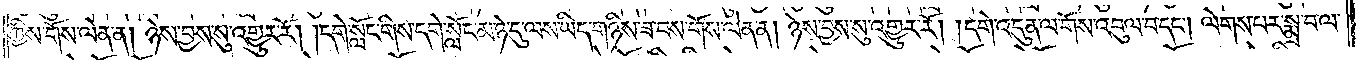ཀྱིས་གོས་ལེན་ན། ཉེས་བྱས་སུ་འགྱུར་རོ། །དགེ་སློང་གིས་དགེ་སློང་མ་ཉེ་དུ་ལས་ཡིད་གཉིས་ཟ་བས་གོས་ལེན་ན། ཉེས་བྱས་སུ་འགྱུར་རོ། །དགེ་འདུན་ལ་གོས་འབུལ་བ་དང༌། ལེགས་པར་སྨྲ་བ་ལ་
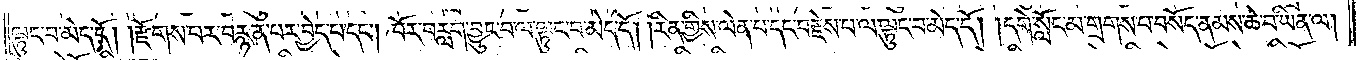ལྟུང་བ་མེད་དོ། །རྫོགས་པར་བརྙན་པར་བྱེད་པ་དང༌། བོར་བརླག་བྱུང་བ་ལ་ལྟུང་བ་མེད་དོ། །རིན་གྱིས་ལེན་པ་དང་བརྗེས་པ་ལ་ལྟུང་བ་མེད་དོ། །དགེ་སློང་མ་གྲགས་པ་བསོད་ནམས་ཆེ་བ་ཡིན་ལ།
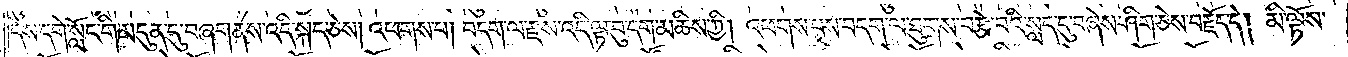དེས་དགེ་སློང་གི་མདུན་དུ་བཞག་ནས་འདི་སྐད་ཅེས། འཕགས་པ། བདག་ལ་རྫས་འདི་ལྟ་བུ་དག་མཆིས་ཀྱི། འཕགས་པས་བདག་ལ་ཐུགས་བརྩེ་བའི་སླད་དུ་བཞེས་ཤིག་ཅེས་བརྗོད་དེ། མི་ལྟོས་
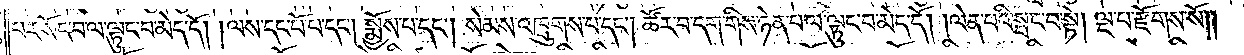པར་སོང་བ་ལ་ལྟུང་བ་མེད་དོ། །ལས་དང་པོ་པ་དང༌། སྨྱོས་པ་དང༌། སེམས་འཁྲུགས་པ་དང༌། ཚོར་བ་དག་གིས་ཉེན་པ་ལ་ལྟུང་བ་མེད་དོ། །ལེན་པའི་སྤང་བ་སྟེ། ལྔ་པ་རྫོགས་སོ༎
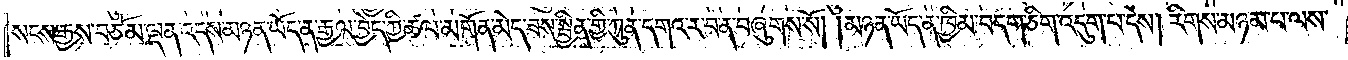སངས་རྒྱས་བཅོམ་ལྡན་འདས་མཉན་ཡོད་ན་རྒྱལ་བྱེད་ཀྱི་ཚལ་མགོན་མེད་ཟས་སྦྱིན་གྱི་ཀུན་དགའ་ར་བ་ན་བཞུགས་སོ། །མཉན་ཡོད་ན་ཁྱིམ་བདག་ཅིག་འདུག་པ་དེས། རིགས་མཉམ་པ་ལས་
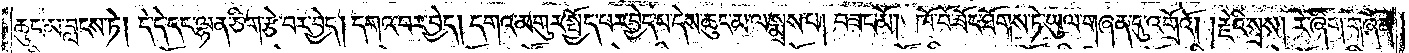ཆུང་མ་བླངས་ཏེ། དེ་དེ་དང་ལྷན་ཅིག་རྩེ་བར་བྱེད། དགའ་བར་བྱེད། དགའ་མགུར་སྤྱོད་པར་བྱེད་པ་དེས་ཆུང་མ་ལ་སྨྲས་པ། བཟང་མོ། ཁོ་བོ་ཟོང་ཐོགས་ཏེ་ཡུལ་གཞན་དུ་འགྲོའོ། །རྗེའི་སྲས། རེ་ཞིག་གཞོན་
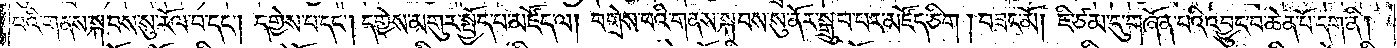པའི་གནས་སྐབས་སུ་རོལ་བ་དང༌། དགྱེས་པ་དང༌། དགྱེས་མགུར་སྤྱོད་པ་མཛོད་ལ། བགྲེས་པའི་གནས་སྐབས་སུ་ནོར་སྒྲུབ་པར་མཛོད་ཅིག། བཟང་མོ། ཇི་ཙམ་དུ་གཞོན་པའི་འབྱུང་བ་ཆེན་པོ་དག་ནི།
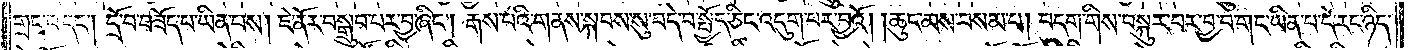གྲང་བ་དང༌། དྲོ་བ་བཟོད་པ་ཡིན་པས། ཇེ་ནོར་བསྒྲུབ་པར་བྱ་ཞིང༌། རྒས་པའི་གནས་སྐབས་སུ་བདེ་བ་སྤྱོད་ཅིང་འདུག་པར་བྱའོ། །ཆུང་མས་བསམ་པ། བདག་གིས་བསྐུར་བར་བྱ་བ་གང་ཡིན་པ་དེ་རང་ཉིད་
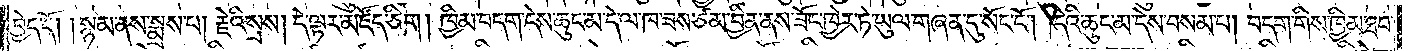བྱེད་དོ། །སྙམ་ནས་སྨྲས་པ། རྗེའི་སྲས། དེ་ལྟར་མཛོད་ཅིག །ཁྱིམ་བདག་དེས་ཆུང་མ་དེ་ལ་ཁ་ཟས་ཙམ་བྱིན་ནས་ཟོང་ཁྱེར་ཏེ་ཡུལ་གཞན་དུ་སོང་ངོ༌། །དེའི་ཆུང་མ་དེས་བསམ་པ། བདག་གིས་ཁྱིམ་ཐབ་
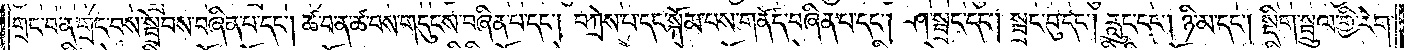གྲང་བ་ན་གྲང་བས་སྦྲེབས་བཞིན་པ་དང༌། ཚ་བ་ན་ཚ་བས་གདུངས་བཞིན་པ་དང༌། བཀྲེས་པ་དང་སྐོམ་པས་གནོད་བཞིན་པ་དང༌། ཤ་སྦྲང་དང༌། སྦྲང་བུ་དང༌། རླུང་དང༌། ཉི་མ་དང༌། སྡིག་སྦྲུལ་གྱི་རེག་
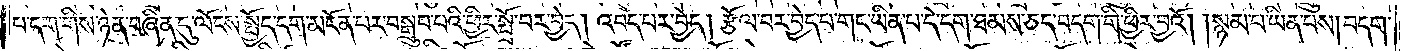པ་དག་གིས་ཉེན་བཞིན་དུ་ལོངས་སྤྱོད་དག་མངོན་པར་བསྒྲུབ་པའི་ཕྱིར་སྤྲོ་བར་བྱེད། འབད་པར་བྱེད། རྩོལ་བར་བྱེད་པ་གང་ཡིན་པ་དེ་དག་ཐམས་ཅད་བདག་གི་ཕྱིར་བྱའོ། །སྙམ་པ་ཡིན་པས། བདག་
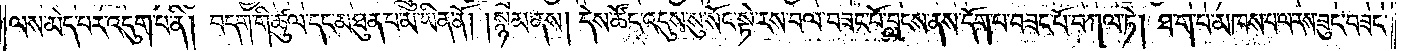ལས་མེད་པར་འདུག་པ་ནི། བདག་གི་ཚུལ་དང་མཐུན་པ་མ་ཡིན་ནོ། །སྙམ་ནས། དེས་ཚོང་འདུས་སུ་སོང་སྟེ་རས་བལ་བཟང་པོ་བླངས་ནས་དོག་པ་བཟང་པོ་བཀལ་ཏེ། ཐ་ག་པ་མཁས་པ་ལ་རས་ཟུང་བཟང་
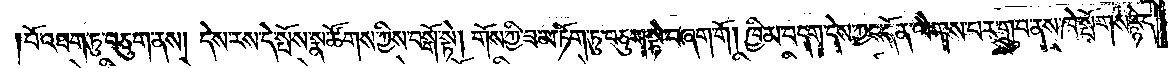པོ་འཐག་ཏུ་བཅུག་ནས། དེས་རས་དེ་སྤོས་སྣ་ཚོགས་ཀྱིས་བསྒོ་སྟེ། གོས་ཀྱི་ཟ་མ་ཏོག་ཏུ་བཅུག་སྟེ་བཞག་གོ །ཁྱིམ་བདག་དེས་ཀྱང་དོན་ལེགས་པར་གྲུབ་ནས་ཁེ་སྤོགས་རྙེད་
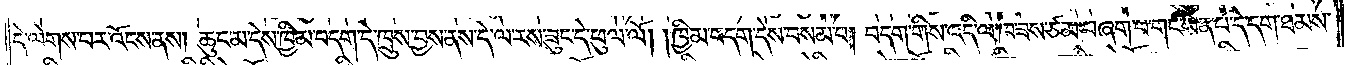དེ་ལེགས་པར་འོངས་ནས། ཆུང་མ་དེས་ཁྱིམ་བདག་དེ་ཁྲུས་བྱས་ནས་དེ་ལ་རས་ཟུང་དེ་ཕུལ་ལོ། །ཁྱིམ་བདག་དེས་བསམ་པ། བདག་གིས་འདི་ལ་ཁ་ཟས་ཙམ་བཞག་པ་གང་ཡིན་པ་དེ་དག་ཐམས་
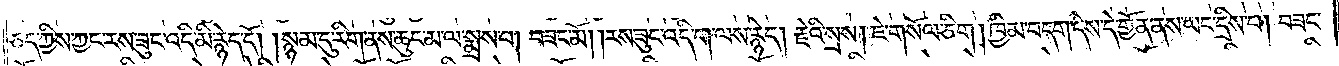ཅད་ཀྱིས་ཀྱང་རས་ཟུང་འདི་མི་རྙེད་དོ། །སྙམ་དུ་རིག་ནས་ཆུང་མ་ལ་སྨྲས་པ། བཟང་མོ། །རས་ཟུང་འདི་ག་ལས་རྙེད། རྗེའི་སྲས། ཇེ་གསོལ་ཅིག །ཁྱིམ་བདག་དེས་དེ་གྱོན་ནས་ཡང་དྲིས་པ། བཟང་
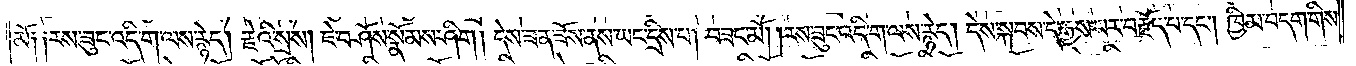མོ༑ ༑རས་ཟུང་འདི་ག་ལས་རྙེད། རྗེའི་སྲས། ཇེ་བཤོས་སྣོམས་ཤིག །དེས་ཟན་ཟོས་ནས་ཡང་དྲིས་པ། བཟང་མོ། །རས་ཟུང་འདི་ག་ལས་རྙེད། དེས་སྐབས་དེ་རྒྱས་པར་བརྗོད་པ་དང༌། ཁྱིམ་བདག་གིས་
